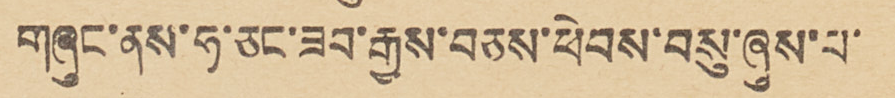གཞུང་ནས་ཧ་ཅང་ཟབ་རྒྱས་བཅས་ཕེབས་བསུ་ཞུས་པ་
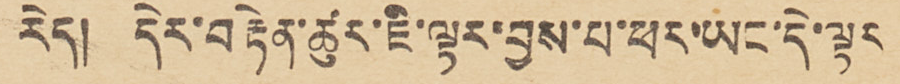རེད།   དེར་བརྟེན་ཚུར་ཇི་ལྟར་བྱས་པ་ཕར་ཡང་དེ་ལྟར
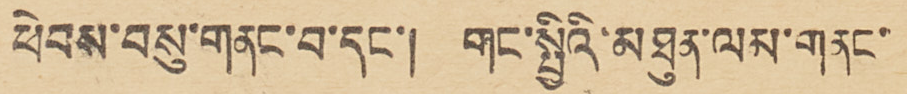ཕེབས་བསུ་གནང་བ་དང་། གང་སྤྱིའི་མཐུན་ལམ་གནང་
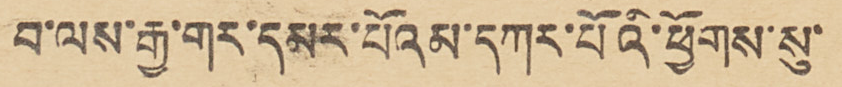བ་ལས་རྒྱ་གར་དམར་པོའམ་དཀར་པོའི་ཕྱོགས་སུ་
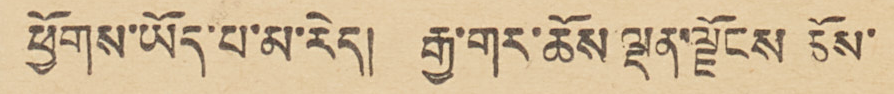ཕྱོགས་ཡོད་པ་མ་རེད། རྒྱ་གར་ཆོས་ལྡན་ལྗོངས ཆོས་
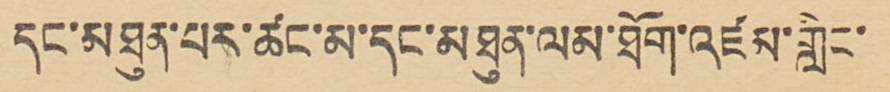དང་མཐུན་པར་ཚང་མ་དང་མཐུན་ལམ་ཐོག་འཛམ་གླིང་
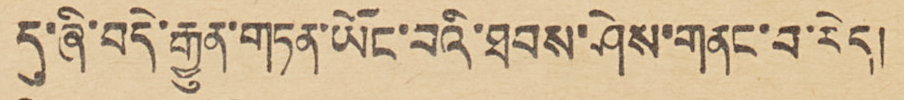དུ་ཞི་བདེ་རྒྱུན་གཏན་ཡོང་བའི་ཐབས་ཤེས་གནང་བ་རེད།
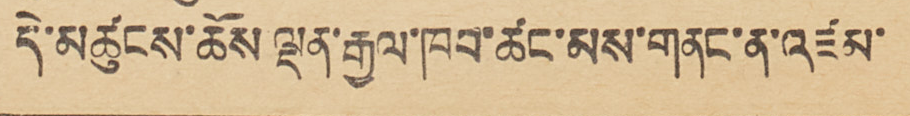དེ་མཚུངས་ཆོས་ལྡན་རྒྱལ་ཁབ་ཚང་མས་གནང་ན་འཛམ་
